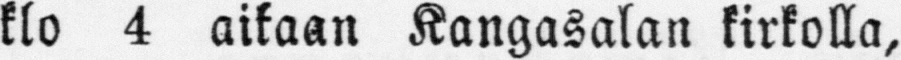klo 4 aikaan Kangasalan kirkolla,
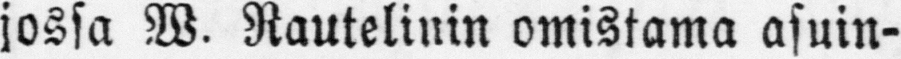jossa W. Rautelinin omistama asuin-
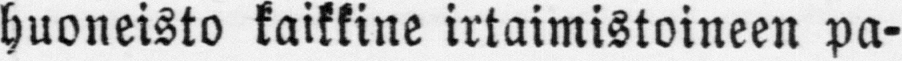huoneisto kaikkine irtaimistoineen pa-
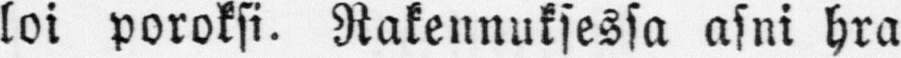loi poroksi. Rakennuksessa asni hra
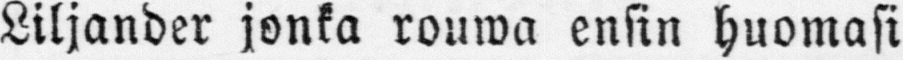Liljander jonka rouwa ensin huomasi
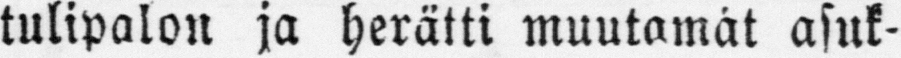tulipalon ja herätti muutamat asuk-
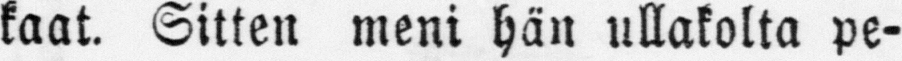kaat. Sitten meni hän ullakolta pe-
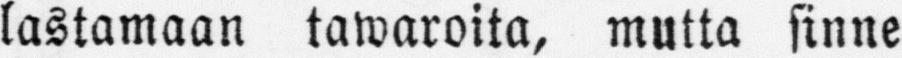lastamaan tawaroita, mutta sinne
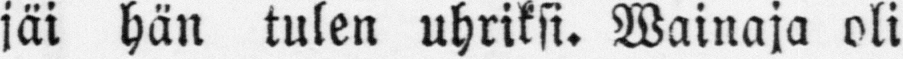jäi hän tulen uhriksi. Wainaja oli
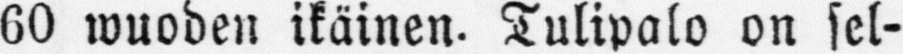60 wuoden ikäinen. Tulipalo on sel-
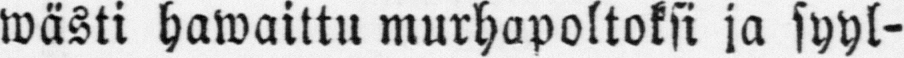wästi hawaittu murhapoltoksi ja syyl-
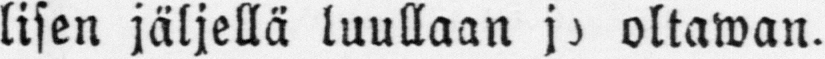lisen jäljellä luullaan jo oltawan.
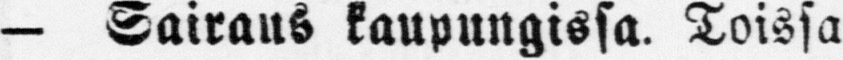— Sairaus kaupungissa. Toissa
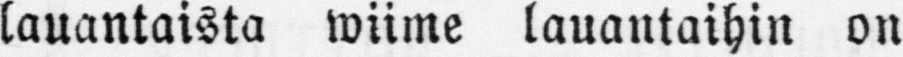lauantaista wiime lauantaihin on
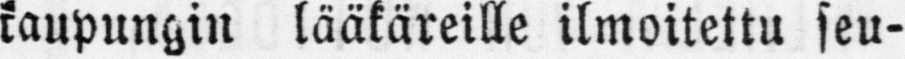kaupungin lääkäreille ilmoitettu seu-
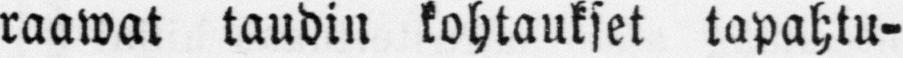raawat taudin kohtaukset tapahtu-
